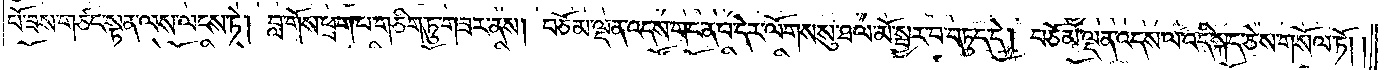པོ་ཟས་གཙང་སྟན་ལས་ལངས་ཏེ། བླ་གོས་ཕྲག་པ་གཅིག་ཏུ་གཟར་ནས། བཅོམ་ལྡན་འདས་གང་ན་བ་དེར་ལོགས་སུ་ཐལ་མོ་སྦྱར་བ་བཏུད་དེ། བཅོམ་ལྡན་འདས་ལ་འདི་སྐད་ཅེས་གསོལ་ཏོ། །
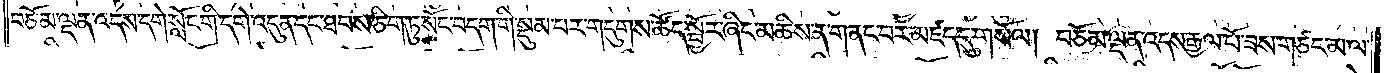བཅོམ་ལྡན་འདས་དགེ་སློང་གི་དགེ་འདུན་དང་ཐབས་ཅིག་ཏུ་སོང་བདག་གི་སྡུམ་པར་གདུགས་ཚོད་སྦྱོར་ཞིང་མཆིས་ན་གནང་བར་མཛད་དུ་གསོལ། བཅོམ་ལྡན་འདས་རྒྱལ་པོ་ཟས་གཙང་མ་ལ་
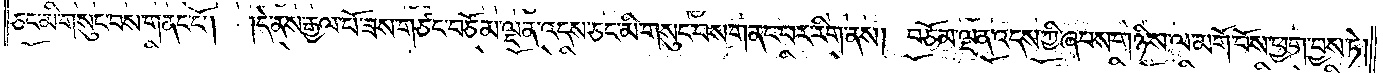ཅང་མི་གསུང་བས་གནང་ངོ༌། །དེ་ནས་རྒྱལ་པོ་ཟས་གཙང་བཅོམ་ལྡན་འདས་ཅང་མི་གསུང་བས་གནང་བར་རིག་ནས། བཅོམ་ལྡན་འདས་ཀྱི་ཞབས་གཉིས་ལ་མགོ་བོས་ཕྱག་བྱས་ཏེ།
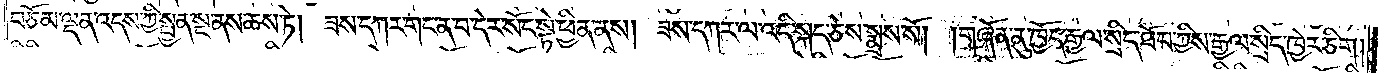བཅོམ་ལྡན་འདས་ཀྱི་སྤྱན་སྔ་ནས་ཆས་ཏེ། ཟས་དཀར་གང་ན་བ་དེར་སོང་སྟེ་ཕྱིན་ནས། ཟས་དཀར་ལ་འདི་སྐད་ཅེས་སྨྲས་སོ། །གཞོན་ནུ་ཁྱོད་རྒྱལ་སྲིད་ཐོབ་ཀྱིས་རྒྱལ་སྲིད་ཁྱེར་ཅིག།
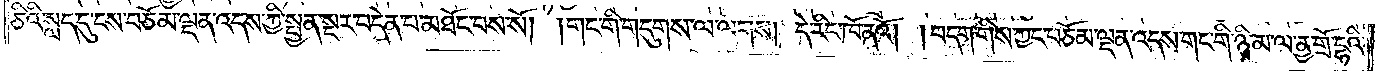ཅིའི་སླད་དུ་ངས་བཅོམ་ལྡན་འདས་ཀྱི་སྤྱན་སྔར་བདེན་པ་མཐོང་བས་སོ། །གང་གི་གདུགས་ལ་ལགས། དེ་རིང་ཁོ་ནའོ། །བདག་གིས་ཀྱང་བཅོམ་ལྡན་འདས་གང་གི་ཉི་མ་ལ་ནྱ་གྲོ་དྷའི་
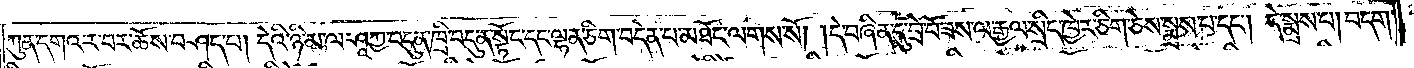ཀུན་དགའ་ར་བར་ཆོས་བཤད་པ། དེའི་ཉི་མ་ལ་ཤཱཀྱ་བདུན་ཁྲི་བདུན་སྟོང་དང་ལྷན་ཅིག་བདེན་པ་མཐོང་ལགས་སོ། །དེ་བཞིན་དུ་བྲེ་བོ་ཟས་ལ་རྒྱལ་སྲིད་ཁྱེར་ཅིག་ཅེས་སྨྲས་པ་དང༌། དེ་སྨྲས་པ། བདག་
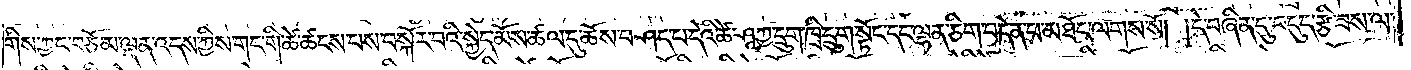གིས་ཀྱང་བཅོམ་ལྡན་འདས་ཀྱིས་གང་གི་ཚེ་ཚངས་པས་བསྐོར་བའི་སྐྱེད་མོས་ཚལ་དུ་ཆོས་བཤད་པ་དེའི་ཚེ་ཤཱཀྱ་དྲུག་ཁྲི་དྲུག་སྟོང་དང་ལྷན་ཅིག་བདེན་པ་མཐོང་ལགས་སོ། །དེ་བཞིན་དུ་བདུད་རྩི་ཟས་ལ་
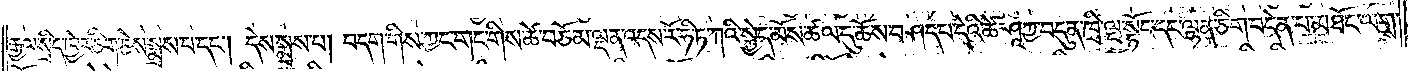རྒྱལ་སྲིད་ཁྱེར་ཅིག་ཅེས་སྨྲས་པ་དང༌། དེས་སྨྲས་པ། བདག་གིས་ཀྱང་གང་གིས་ཚེ་བཅོམ་ལྡན་འདས་རོ་ཧི་ཏ་ཀའི་སྐྱེད་མོས་ཚལ་དུ་ཆོས་བཤད་པ་དེའི་ཚེ་ཤཱཀྱ་བདུན་ཁྲི་ལྔ་སྟོང་དང་ལྷན་ཅིག་བདེན་པ་མཐོང་ལགས་
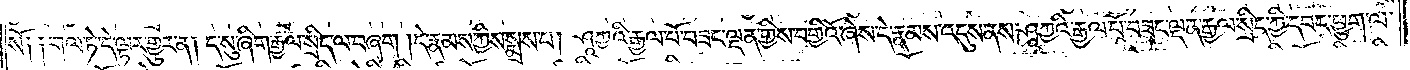སོ༑ ༑གལ་ཏེ་དེ་ལྟར་གྱུར་ན། ད་སུ་ཞིག་རྒྱལ་སྲིད་ལ་བཞག །དེ་རྣམས་ཀྱིས་སྨྲས་པ། ཤཱཀྱའི་རྒྱལ་པོ་བཟང་ལྡན་གྱིས་བགྱིའོ་ཞེས་དེ་རྣམས་འདུས་ནས་ཤཱཀྱའི་རྒྱལ་པོ་བཟང་ལྡན་རྒྱལ་སྲིད་ཀྱི་དབང་ཕྱུག་ལ་
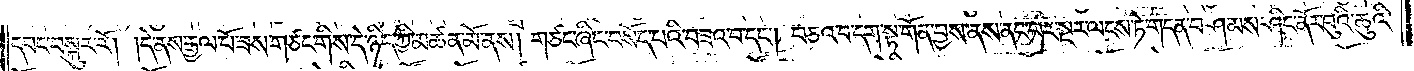དབང་བསྐུར་རོ། །དེ་ནས་རྒྱལ་པོ་ཟས་གཙང་གིས་དེ་ཉིད་ཀྱི་མཚན་མོ་ནས། གཙང་ཞིང་བསོད་པའི་བཟའ་བ་དང༌། བཅའ་བ་དག་སྟ་གོན་བྱས་ནས་ནང་པར་སྔར་ལངས་ཏེ་གདན་བཤམས་ཤིང་ནོར་བུའི་ཆུའི་
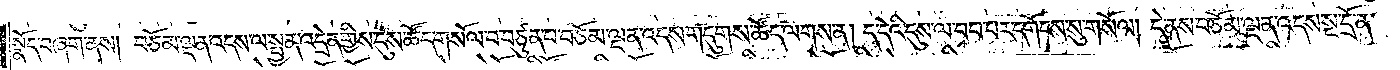སྣོད་བཞག་ནས། བཅོམ་ལྡན་འདས་ལ་སྤྱན་འདྲེན་གྱིས་དུས་ཚོད་གསོལ་བ་བཙུན་པ་བཅོམ་ལྡན་འདས་གདུགས་ཚོད་ལགས་ན། ད་དེའི་དུས་ལ་བབ་པར་དགོངས་སུ་གསོལ། དེ་ནས་བཅོམ་ལྡན་འདས་སྔ་དྲོ་ན་
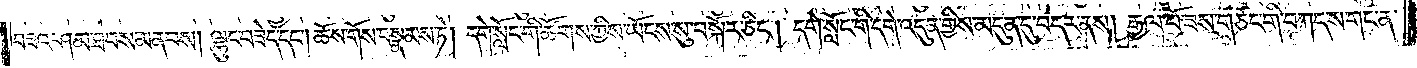བཟའ་ཤམ་ཐབས་མནབས། ལྷུང་བཟེད་དང༌། ཆོས་གོས་བསྣམས་ཏེ། དགེ་སློང་གི་ཚོགས་ཀྱིས་ཡོངས་སུ་བསྐོར་ཅིང༌། དགེ་སློང་གི་དགེ་འདུན་གྱིས་མདུན་དུ་བདར་ནས། རྒྱལ་པོ་ཟས་གཙང་གི་བཀད་ས་གང་ན་
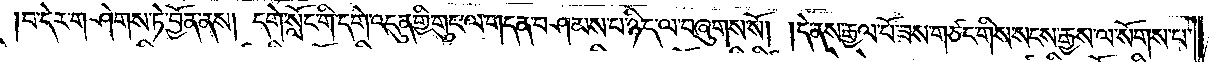།བ་དེར་གཤེགས་ཏེ་བྱོན་ནས། དགེ་སློང་གི་དགེ་འདུན་གྱི་གུང་ལ་གདན་བཤམས་པ་ཉིད་ལ་བཞུགས་སོ། །དེ་ནས་རྒྱལ་པོ་ཟས་གཙང་གིས་སངས་རྒྱས་ལ་སོགས་པ་
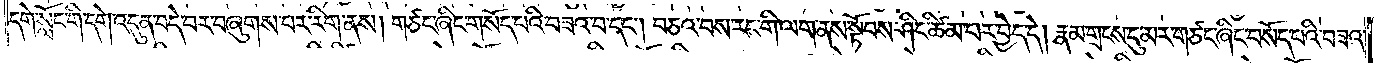དགེ་སློང་གི་དགེ་འདུན་བདེ་བར་བཞུགས་པར་རིག་ནས། གཙང་ཞིང་གསོད་པའི་བཟའ་བ་དང༌། བཅའ་བས་རང་གི་ལག་ནས་སྟོབས་ཤིང་ཚིམ་པར་བྱེད་དེ། རྣམ་གྲངས་དུ་མར་གཙང་ཞིང་བསོད་པའི་བཟའ་
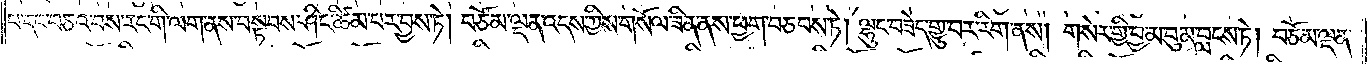བ་དང་བཅའ་བས་རང་གི་ལག་ནས་བསྟབས་ཤིང་ཚིམ་པར་བྱས་ཏེ། བཅོམ་ལྡན་འདས་ཀྱིས་གསོལ་ཟིན་ནས་ཕྱག་བཅབས་ཏེ། ལྷུང་བཟེད་གྱུ་བར་རིག་ནས། གསེར་གྱི་བྱ་མ་བུམ་བླངས་ཏེ། བཅོམ་ལྡན་
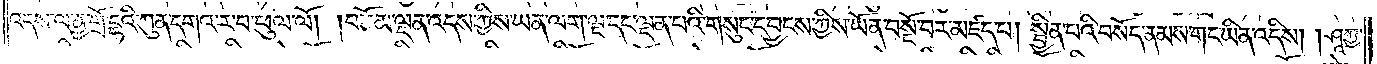འདས་ལ་ནྱ་གྲོ་དྷའི་ཀུན་དགའ་ར་བ་ཕུལ་ལོ། །བཅོམ་ལྡན་འདས་ཀྱིས་ཡན་ལག་ལྔ་དང་ལྡན་པའི་གསུང་དབྱངས་ཀྱིས་ཡོན་བསྔོ་བར་མཛད་པ། སྦྱིན་པའི་བསོད་ནམས་གང་ཡིན་འདིས། །ཤཱཀྱ་
